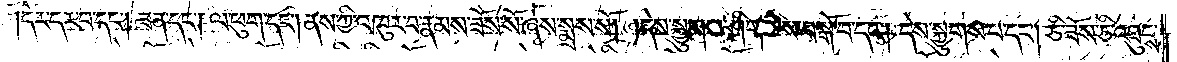དེར་དར་བ་དང༌། ཟན་དང༌། ལ་ཕུག་དང༌། ནས་ཀྱི་འཁུར་བ་རྣམས་ཟོས་སོ་ཞེས་སྨྲས་སོ། །དེས་སྐྱུགས་ཤིག་ཅེས་བསྒོ་བ་དང༌། དེས་སྐྱུགས་པ་དང༌། ཅི་ཟོས་ཅི་འཐུངས་
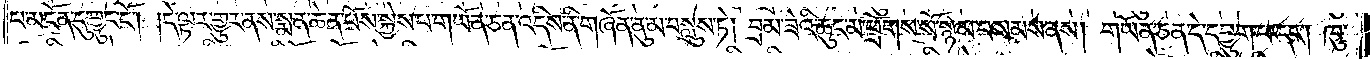པ་མངོན་དུ་བྱུང་ངོ༌། །དེ་ལྟར་གྱུར་ནས་སྨན་ཆེན་པོས་སྐྱེས་པ་གཡོན་ཅན་འདིས་ནི་གཞོན་ནུ་མ་བསླུས་ཏེ། བྲམ་ཟེའི་ཆུང་མ་ཕྲོགས་སོ་སྙམ་བསམས་ནས། གཡོན་ཅན་དེ་དབྱུག་པ་དང༌། ཁུ་
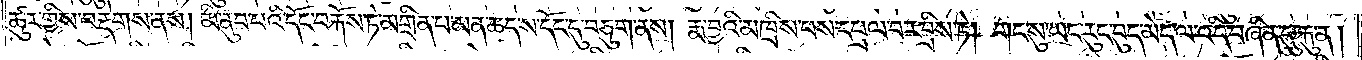ཚུར་གྱིས་བརྡེགས་ནས། མི་ནུབ་པའི་དོང་བརྐོས་ཏེ་མགྲིན་པ་མན་ཆད་ས་དོང་དུ་བཅུག་ནས། རྨ་བྱའི་མཁྲིས་པས་དཔྲལ་བར་བྲིས་ཏེ། གང་སུ་ཡང་རུང་བུད་མེད་ལ་འདི་བཞིན་དུ་རྐུ་ན།
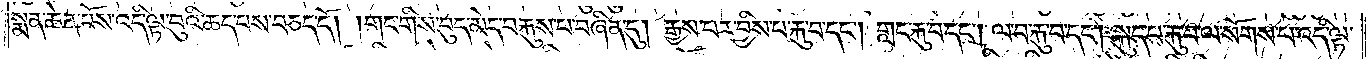སྨན་ཆེན་པོས་འདི་ལྟ་བུའི་ཆད་པས་བཅད་དོ། །གང་གིས་བུད་མེད་བརྐུས་པ་བཞིན་དུ། རྒྱས་པར་བྱིས་པ་རྐུ་བ་དང༌། གླང་རྐུ་བ་དང༌། ལ་བ་རྐུ་བ་དང༌། སྐུད་པ་རྐུ་བ་ལ་སོགས་པ་འདི་ལྟ་
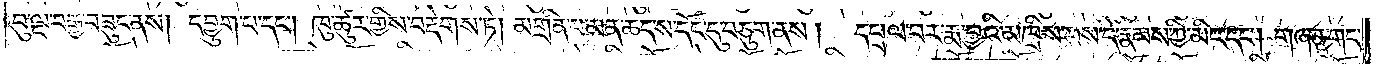བུ་ལྔ་བརྒྱ་བཟུང་ནས། དབྱུག་པ་དང༌། ཁུ་ཚུར་གྱིས་བརྡེགས་ཏེ། མགྲིན་པ་མན་ཆད་ས་དོང་དུ་བཅུག་ནས། དཔྲལ་བར་རྨ་བྱའི་མཁྲིས་པས་དེ་རྣམས་ཀྱི་མིང་དང༌། གཞན་གང་
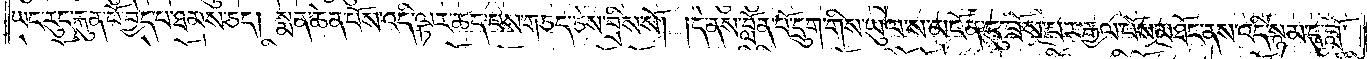ཡང་རུང་རྐུན་པོ་བྱེད་པ་ཐམས་ཅད། སྨན་ཆེན་པོས་འདི་ལྟར་ཆད་པས་གཅད་ཅེས་བྲིས་སོ། །དེ་ནས་བློན་པོ་དྲུག་གིས་ཡུལ་ས་མངོན་དུ་ཟོས་པར་རྒྱལ་པོས་མཐོང་ནས་འདི་སྙམ་དུ་བློ་
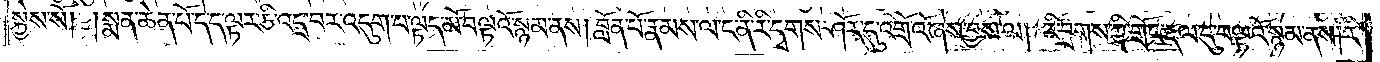སྐྱེས་སོ། །སྨན་ཆེན་པོ་དེ་ད་ལྟར་ཅི་འདྲ་བར་འདུག་པ་ལྟད་མོ་བལྟའོ་སྙམ་ནས། བློན་པོ་རྣམས་ལ་ང་ནི་རི་དྭགས་ཤོར་དུ་འགྲོའོ་ཞེས་བྱས་ལ། རི་བྲགས་ཀྱི་གྲོང་རྡལ་དུ་བལྟའོ་སྙམ་ནས། རི་
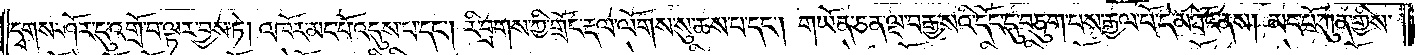དྭགས་ཤོར་དུ་འགྲོ་བ་ལྟར་བྱས་ཏེ། འཁོར་མང་པོ་འདུས་པ་དང༌། རི་བྲགས་ཀྱི་གྲོང་རྡལ་ལོགས་སུ་ཆས་པ་དང༌། གཡོན་ཅན་ལྔ་བརྒྱ་སའི་དོང་དུ་བཅུག་པས་རྒྱལ་པོ་དེ་མཐོང་ནས། མང་པོ་ཀུན་གྱིས་
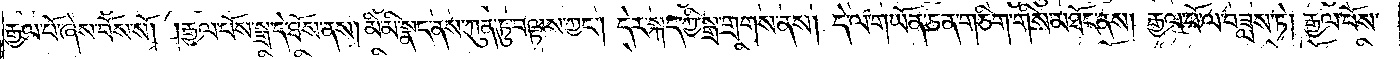རྒྱལ་པོ་ཞེས་བོས་སོ། །རྒྱལ་པོས་སྒྲ་དེ་ཐོས་ནས། མི་མི་སྣང་ནས་ཀུན་ཏུ་བལྟས་ཀྱང༌། དེར་སྐད་ཀྱི་སྒྲ་གྲགས་ནས། དེ་ལ་གཡོན་ཅན་གཅིག་གིས་མཐོང་ནས། རྒྱལ་པོ་ལ་བཟླས་ཏེ། རྒྱལ་པོས་
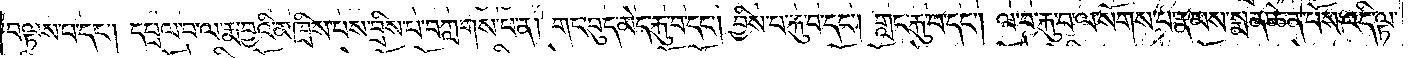བལྟས་པ་དང༌། དཔྲལ་བ་ལ་རྨ་བྱའི་མཁྲིས་པས་བྲིས་པ་བཀླགས་པ་ན། གང་བུད་མེད་རྐུ་བ་དང༌། བྱིས་པ་རྐུ་བ་དང༌། གླང་རྐུ་བ་དང༌། ལྭ་བ་རྐུ་བ་ལ་སོགས་པ་རྣམས་སྨན་ཆེན་པོས་འདི་ལྟ་
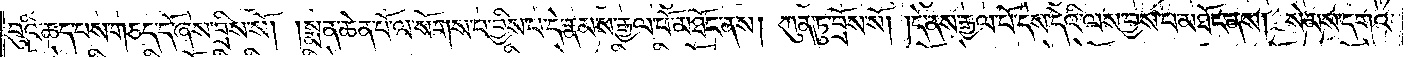བུའི་ཆད་པས་གཅད་དོ་ཞེས་བྲིས་སོ། །སྨན་ཆེན་པོ་ལ་སོགས་པ་བྱིས་པ་དེ་རྣམས་རྒྱལ་པོ་མཐོང་ནས། ཀུན་ཏུ་བྲོས་སོ། །དེ་ནས་རྒྱལ་པོ་དེས་དེའི་ལས་བྱས་པ་མཐོང་ནས། སེམས་དགའ་
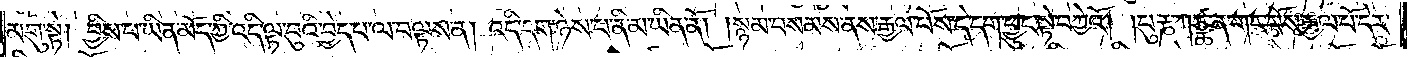མགུ་སྟེ། བྱིས་པ་ཡིན་མོད་ཀྱི་འདི་ལྟ་བུའི་བྱེད་པ་ལ་བལྟས་ན། འདི་དག་ཉེས་པ་ནི་མ་ཡིན་ནོ། །སྙམ་བསམས་ནས་རྒྱལ་པོས་དེ་དག་ཕྱུང་སྟེ་བཀྱེའོ། །པུརྞ་ཀཙྪ་ན་གང་པོས་རྒྱལ་པོ་དེར་
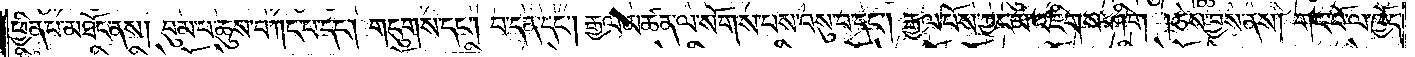ཕྱིན་པ་མཐོང་ནས། བུམ་པ་ཆུས་བཀང་པ་དང༌། གདུགས་དང༌། བ་དན་དང༌། རྒྱལ་མཚན་ལ་སོགས་པས་བསུ་བ་དང༌། རྒྱལ་པོས་ཀྱང་མ་འཇིགས་ཤིག །ཅེས་བྱས་ནས། གང་པོ་ལ་ཁྱོད་
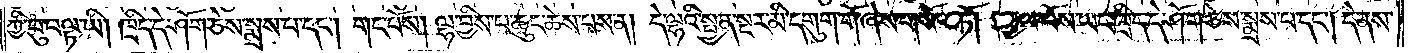ཀྱི་བུ་བལྟ་ཡི། ཁྲིད་དེ་ཤོག་ཅེས་སྨྲས་པ་དང༌། གང་པོས། ལྷ་བྱིས་པ་ཆུང་ཆེས་པས་ན། དེ་ལྷའི་སྤྱན་སྔར་མི་དགུག་གོ་ཞེས་གསོལ་ཏོ། །རྒྱལ་པོས་ཡང་ཁྲིད་དེ་ཤོག་ཅེས་སྨྲས་པ་དང༌། དེ་ནས་
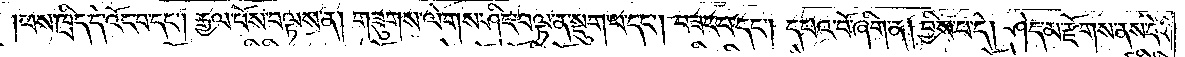ཕས་ཁྲིད་དེ་འོང་བ་དང༌། རྒྱལ་པོས་བལྟས་ན། གཟུགས་ལེགས་ཤིང་བལྟ་ན་སྡུག་པ་དང༌། བཟང་བ་དང༌། དཔའ་བོ་ཞིག་ན། བྱིས་པ་དེ། ཤེད་མ་རྫོགས་ནས་དེའི་
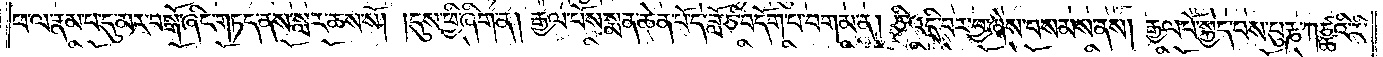ཕ་ལ་རྣམ་པ་དུ་མར་བསྒོ་ཞིང་གཏད་ནས་སླར་ཆས་སོ། །དུས་ཕྱི་ཞིག་ན། རྒྱལ་པོས་སྨན་ཆེན་པོ་དེ་བློ་ཅི་བདོག་པ་བགམ་ན། ཅི་འདྲི་བར་བྱ་ཞེས་བསམས་ནས། རྒྱལ་པོ་སྐྱེད་པས་པུརྞ་ཀཙྪའི་རི་
